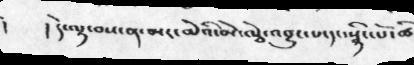།   ། དེ་ལྟ་བས་ན་མར་མེའི་མེ་ལྕེ་འབྱུང་པ་དང་སྙིང་པོ་ཆི
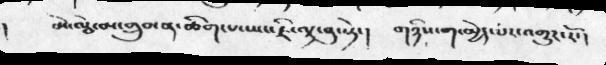།   མེ་ལྕེ་མ་གྲུབ་ན་ཚིག་པ་ཡང་ཇི་ལྟ་བུ་སྟེ་།  གཉིས་ག་མྱེད་པར་འགྱུར་རོ་།
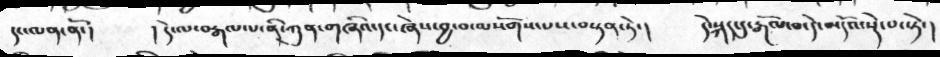དང་ལན་ནོ་།   །དེ་ལ་བརྒལ་པ་ནི་ཀུན་གཞིའ་དང་ཞེས་བྱ་བ་ལསོགས་པས་བསྟན་ཏེ་།   དེ་སྐད་དུ་རྒོལ་བ་དེ་མདོའ་སྡེ་པ་སྟེ་།
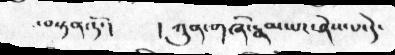་བསྟན་ཏོ་།      ། ཀུན་གཞི་རྣམ་པར་ཤེས་པ་དེ་
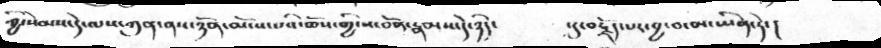ཀྱི་སེམས་དེ་ལས་ཀུན་ནས་ཉོན་མོངས་པའི་ཆོས་གྱི་ས་བོན་རྣམས་དེ་ཉིད་      ་དུ་བརྗོད་པར་བྱ་བ་མ་ཡིན་ཏེ་།
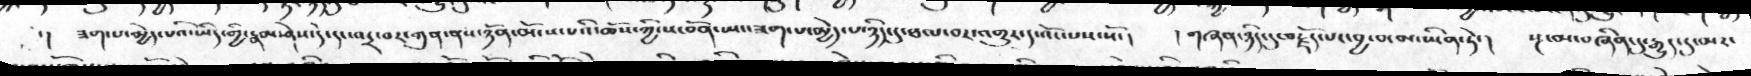་།  ཟག་པ་མྱེད་པའི་ཡིད་གྱི་རྣམ་ཤེས་དེ་དང་འདྲ་བར་ཀུན་ནས་ཉོན་མོངས་པའི་ཆོས་ཀྱི་ས་བོན་ཡང་ཟག་པ་མྱེད་པ་ཉིད་དུ་ཐལ་བར་འགྱུར་དུ་འོང་པས་སོ་།   །གཞན་ཉིད་དུ་བརྗོད་པར་བྱ་བ་མ་ཡིན་ཏེ་།   སྔ་མ་བཞིན་དུ་རྒྱུད་དུ་མར་
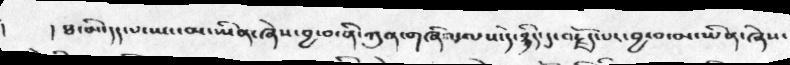།   ། ཐ་མི་དད་པ་ཡང་མ་ཡིན་ཞེས་བྱ་བ་ནི་ཀུན་གཞིའ་ལས་དེ་ཉིད་དུ་བརྗོད་པར་བྱ་བ་མ་ཡིན་ཞེས་
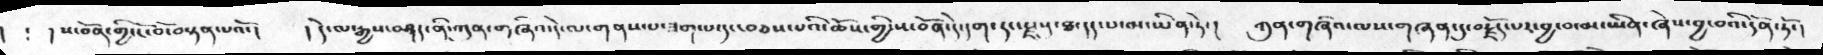།  ༴  །ས་བོན་གྱི་ངོ་བོ་བསྟན་པའོ་།   །དེ་ལ་རྒྱས་བཤད་ནི་ཀུན་གཞིའ་དེ་ལ་གནས་པ་ཟག་པ་དང་བཅས་པའི་ཆོས་གྱི་ས་བོན་དེ་དག་དང་རྫསུ་ཐ་དད་པ་མ་ཡིན་ཏེ་།  ཀུན་གཞིའ་ལས་གཞན་དུ་བརྗོད་པར་བྱ་བ་མ་ཡིན་ཞེས་བྱ་བའི་དོན་ཏོ་།
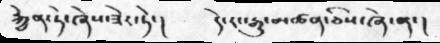རྐྱེན་ཏེ་ཞེས་ཟེར་ཏེ་།     དེ་རང་རྒྱུ་མཚན་ཅིས་ཞེ་ན་།
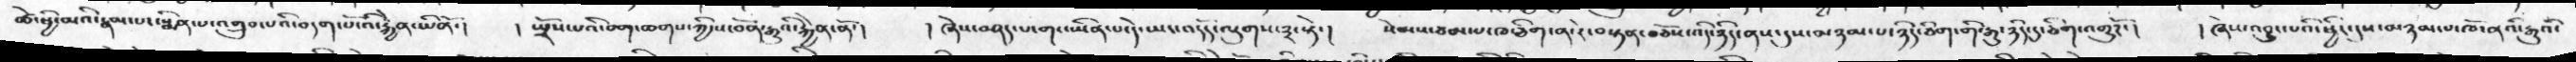ཚེ་ཕྱི་མའི་རྣམ་པར་སྨིན་པ་འགྲུབ་པའི་བདག་པོ་འི་རྐྱེན་ཡིནོ་།  ། སྤྲོས་པའི་བག་ཆགས་ཀྱི་ས་བོན་རྒྱུའི་རྐྱེན་ནོ་།   །ཞེས་བཤད་པ་གང་ཡིན་པ་དེ་ཡང་འདོད་ལུགས་༣་སྟེ་།   སེམས་ཙམ་པ་ཁ་ཅིག་ན་རེ་བསྟན་བཅོས་འདི་ཉིད་ནས་དུས་མཉམ་པ་ཉིད་ཅིག་གི་རྒྱུ་ཉིད་དུ་ཅིག་འགྱུརོ་།   །ཞེས་འབྱུང་པའི་ཕྱིར་དུས་མཉམ་པ་ཁོ་ནའི་རྒྱུའི་
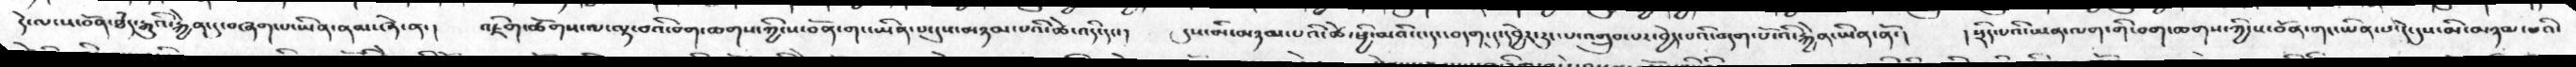དེ་ལ་ས་བོན་ཐདཾ་རྒྱུའི་རྐྱེན་དུ་བཞག་པ་ཡིན་ནམ་ཞེ་ན་།  འཇིག་ཚོགས་ལ་ལྟ་བའི་བག་ཆགས་ཀྱི་ས་བོན་གང་ཡིན་པ་དུས་མཉམ་པའི་ཚེ་འདི་དང་།  དུས་མི་མཉམ་པའི་ཚེ་ཕྱི་མའི་ང་དང་བདག་དུ་དབྱེར་རུང་པ་འགྲུབ་པར་བྱེད་པའི་བདག་པོ་འི་རྐྱེན་ཡིན་ནོ་།  །སྲིད་པའི་ཡན་ལག་གི་བག་ཆགས་ཀྱི་ས་བོན་གང་ཡིན་པ་དེ་དུས་མི་མཉམ་པའི་
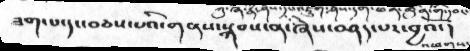ཟག་པ་དང་བཅས་པའི་གནས་སྐབས་ན་ཞེས་བཤད་པར་བྱའོ་།
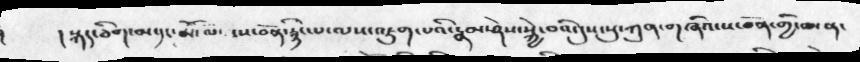།   །སྐད་ཅིག་མ་དང་མོ་ལ ་ས་བོན་རྙིང་པ་ལས་འཇུག་པའི་རྣམ་ཤེས་སྐྱེ་བའི་དུས་སུ་ཀུན་གཞིའ་ས་བོན་གྱི་ཆ་ན་
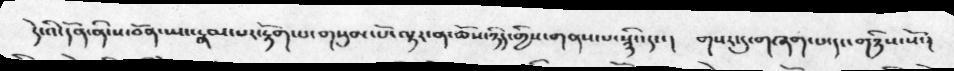དེ་འི་དོན་ནི་ས་བོན་ཡང་རྣམ་པར་རྟོག་པ་གསུམ་པོ་ལྟར་ན་ཆོས་ཉིད་གྱིས་གནས་པ་སྙིང་དང་།   གསར་དུ་གཞག་པ་དང་གཉིས་སོ་།
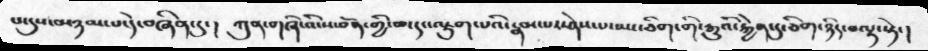པ་དུས་མཉམ་པ་དེ་བཞིན་དུ་།  ཀུན་གཞི་འི་ས་བོན་གྱི་ཆ་དང་འཇུག་པའི་རྣམ་པར་ཤེས་པ་ཡང་ཅིག་གི་རྒྱུའི་རྐྱེན་དུ་ཅིག་ཉིད་བལྟ་སྟེ་།
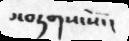པ་བཏགས་སོ་།
